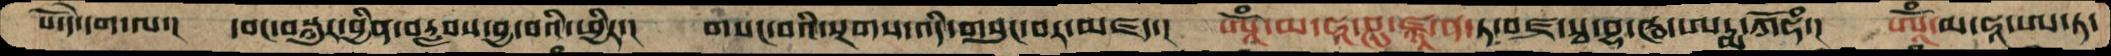པོ་དེ་དག་ལ་།  དབང་བསྐུར་བྱིན་བརླབས་བྱ་བའི་ཕྱིར་།  གསང་བའི་སྔགས་འདི་གསུང་བར་མཛད་།  ཨཱོཾ་མ་ཧཱ་ཤུ་ཛྙཱ་ན་ཏ་བཛྲ་སྭ་བྷ་ཝ་ཨ་ཏྨཀོཧཾ་།  ཨཱོཾ་མ་ཧཱ་ཨ་ཏ་
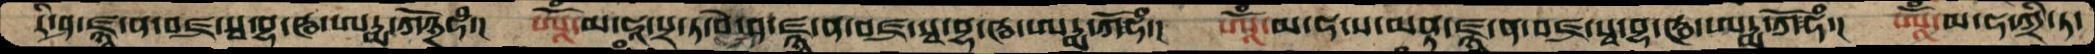རི་ཤ་ཛྙཱ་ན་བཛྲ་སྭ་བྷ་ཝ་ཨཏྨ་ཀོ྅ཧཾ་།  ཨཱོཾ་མ་ཧཱ་སྲ་ཏ་བེ་ཤ་ཛྙཱ་ན་བཛྲ་སྭ་བྷ་ཝ་ཨདྨ་ཀོཧཾ་།  ཨཱོཾ་མ་ཧ་ས་མནྟ་ཛྙཱ་ན་བཛྲ་སྭ་བྷ་ཝ་ཨདྨ་ཀོཧཾ་།  ཨཱོཾ་མ་ཧ་ཀྲི་ཏ་
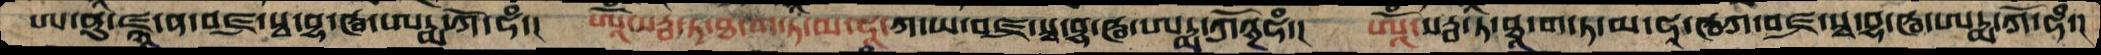ཨ་ནུ་ཛྙཱ་ན་བཛྲ་སྭ་བྷ་ཝ་ཨཏྨ་ཀོ་ཧཾ་།  ཨཱོཾ་སརྦ་ཏ་ཐ་ག་ཏ་མ་ཧཱ་ཀ་ཡ་བཛྲ་སྭ་བྷ་ཝ་ཨཏྨཀོ྅ཧཾ་།  ཨཱོཾ་སརྦ་ཏ་ཐཱ་ག་ཏ་མ་ཧཱ་ཝཀ་བཛྲ་སྭ་བྷ་ཝ་ཨཏྨ་ཀོ་ཧཾ་།
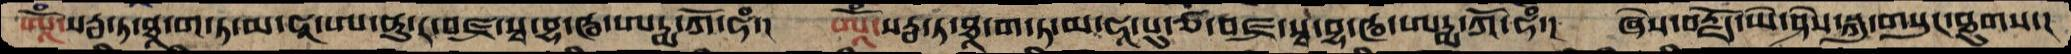ཨཱོཾ་སརྦ་ཏ་ཐཱ་ག་ཏ་མ་ཧཱ་ཨ་ནུ་ར་བཛྲ་སྭ་བྷ་ཝ་ཨཏྨ་ཀོ་ཧཾ་།  ཨཱོཾ་སརྦ་ཏ་ཐཱ་ག་ཏ་མ་ཧཱ་པུ་ཙ་བཛྲ་སྭ་བྷ་ཝ་ཨཏྨ་ཀོ་ཧཾ་།  ཞེས་བརྗོད་ཡེ་ཤེས་སྐུ་གསུང་ཐུགས་།
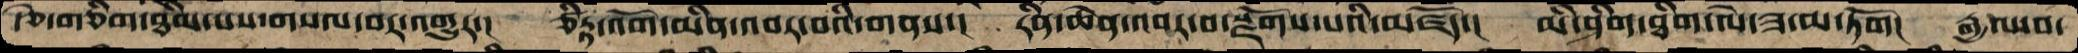རྩེ་གཅིག་ཐིམ་པས་གསལ་བར་འགྱུར་།  ཙིཏྟ་འོག་མིན་འབར་བའི་གནས་།  རིན་ཆེན་འབར་བ་སྫོགས་པའི་མཛོད་།  མི་ཤིག་ཐིག་ལེ་ཟ་མ་ཏོག།  རྒྱལ་བ་
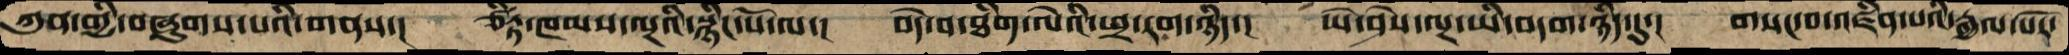ཀུན་གྱི་བཞུགས་པའི་གནས་།  ཙིཏྟ་ཁམས་ལྔའི་སྙིང་པོ་ལ་།  བདེ་བ་ཐིག་ལེའི་ཕྲ་རག་ཉིད་།  ཡེ་ཤེས་ལྔ་ཡི་བདག་ཉིད་དུ་།  གསང་བ་འཛིན་པའི་རྒྱལ་པོར་
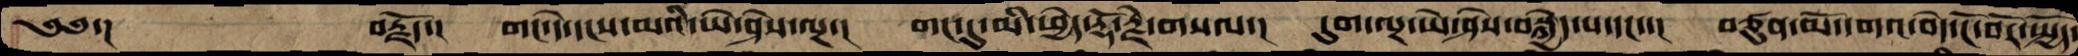༄༅་།     བརྗོད་།  གང་དེ་དངས་མའི་ཡེ་ཤེས་ལྔ་།  གང་དུ་མི་ཕྱེད་རྡོ་རྗེ་གསལ་།  དུག་ལྔ་ཡེ་ཤེས་བསྐྱེད་པ་དང་་།  བཙུན་མོ་དགའ་བདེ་ངོ་བོར་སྤྱོད་།
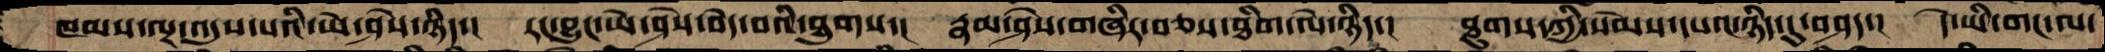ཁམས་ལྔ་འདུས་པའི་ཡེ་ཤེས་ཉིད་།  རང་བྱུང་ཡེ་ཤེས་བདེ་བའི་ཐུགས་།  རྣམ་ཤེས་གཞིར་བཅས་ཐིག་ལེ་ཉིད་།  ཐུགས་ཀྱི་སེམས་དཔའ་ཉིད་དུ་བཤད་།  དེ་ཡི་གང་ལ་
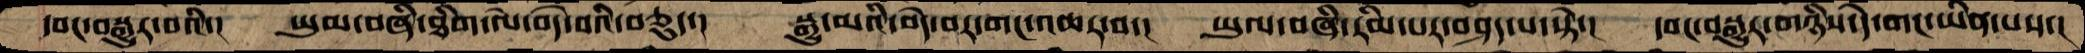དབང་བསྐུར་བའི་།  ཡུམ་བཞི་ཐིག་ལེ་བདེ་བའི་བཅུད་།  སྒྱུ་མའི་བདེ་བར་གང་འཆར་བ་།  ཡུལ་བཞི་རིམ་པར་བཤད་པ་སྟེ་།  དབང་བསྒྱུར་གཉིས་དེ་གང་ཡིན་པས་།
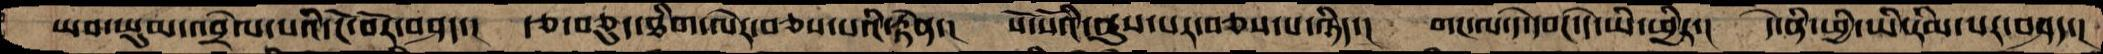ཡབ་ཡུམ་འབྲེལ་པའི་ངོ་བོར་བཤད་།  རྩ་བཅུད་ཐིག་ལེར་བཅས་པའི་རྟེན་།  སོ་སོའི་ནུས་པར་བཅས་པ་ཉིད་།  གང་ལ་དེ་དབང་དེ་ཡི་ཕྱིར་།  དེ་ནི་ཕྱི་ཡི་རིམ་པར་བཤད་།
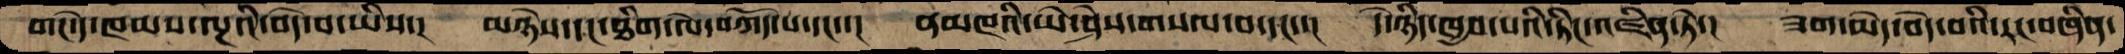གང་དེ་ཁམས་ལྔའི་བདེ་བ་ཡིན་།  མཉེས་དང་ཐིག་ལེ་བཀོད་པ་དང་་།  ནམཁའི་ཡེ་ཤེས་གསལ་བ་དང་་།  དེ་ཉིད་ཁྱབ་པའི་ཏིང་འཛིན་ཏེ་།  ཟག་མེད་བདེ་བའི་རང་བཞིན་
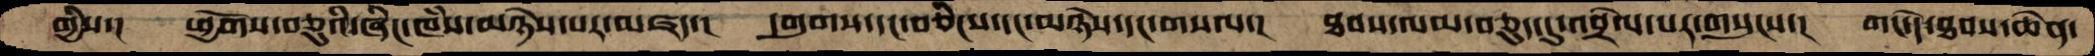གྱིས་།  ཕྱོགས་བཅུའི་ཞིང་ཁཾས་མཉེས་པར་མཛད་།  དགུགས་དང་བཅིངས་དང་མཉེས་དང་གསལ་།  ཐབས་ལམ་བཅུད་དུ་འབྲེལ་པར་གསུངས་།  གང་དེ་ཐབས་ཆེན་
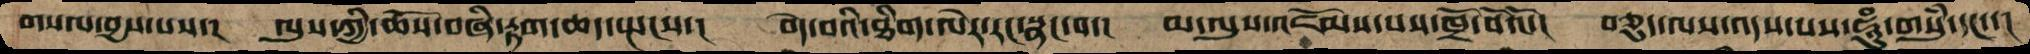གསལ་བྱས་པས་།  ལུས་ཀྱི་ཆོས་བཞི་རྟག་ཆད་སྤངས་།  བདེ་བའི་ཐིག་ལེར་རང་སྣང་བ་།  མ་ལུས་འཇོམས་པས་ཁྲོ་བོའོ་།  བཅུད་ལས་འདས་པས་ཧཱུཾ་གསུཾ་དང་་།
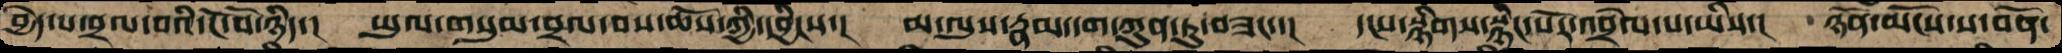བྱེད་པ་བྲལ་བའི་ངོ་བོ་ཉིད་།  ཡུལ་གསུམ་བྲལ་བས་ཆོས་ཀྱི་དབྱིངས་།  མ་ལུས་རྣམ་དག་ཀུན་ཏུ་བཟང་་།  དངས་སྙིགས་སྙིང་པོར་འབྲེལ་པ་ཡིས་།  ཉོན་མོངས་ས་བོན་
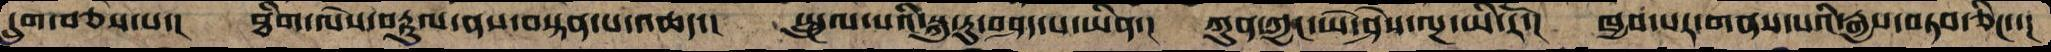དྲུག་བཅས་པ་།  ཐིག་ལེས་བརྟུལ་ནས་བསྟན་པ་འཆད་།   སྤྲུལ་པའི་སྐུ་རུ་བཤད་པ་ཡིན་།  ཀུན་ཀྱང་ཡེ་ཤེས་ལྔ་ཡི་རོ་།  ཁྱབ་པར་གནས་པའི་རྒྱས་བཏབ་ཅིང་་།
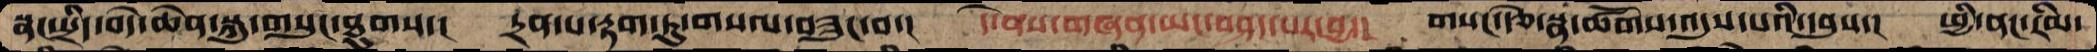སྣང་སྲིད་བདེ་ཆེན་སྐུ་གསུང་ཐུགས་།  དྲན་པ་རྟག་ཏུ་གསལ་བཟུང་བ་།  དེ་ནས་གཞན་ཡང་བཤད་པར་བྱ་།  གསང་རྩེ་སྣ་ཚོགས་འདུས་པའི་དབུས་།  ཕྱི་ནང་རིམ་
